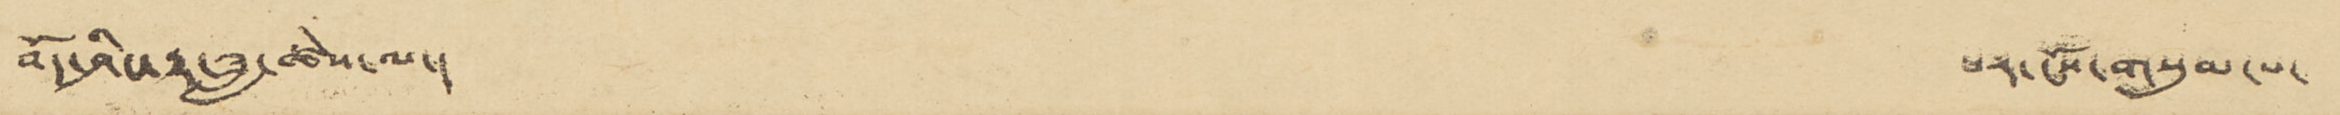བོད་ཤིང་རྟ་ཟླ་ཚེས་ལ་། པར་ངོས་གསུམ་པ་
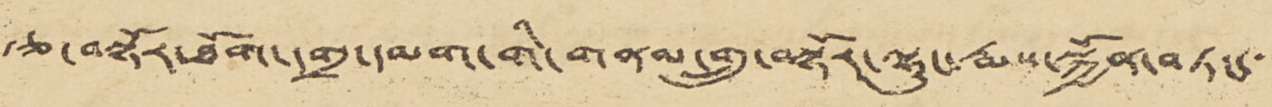རྩ་བསྟོར་ཐོག་དགྲ་དམག་གི་གནམ་གྲུ་བསྟོར་ལྷུང་རྨས་སྐྱོན་བཏང་་
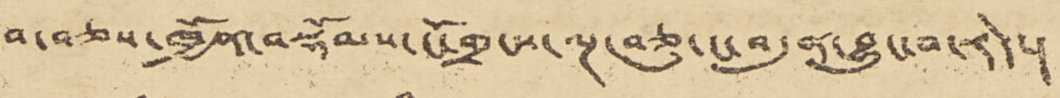བ་བཅས་ཁྱོན་བསྡོམས་ངོ་གྲངས་ལྔ་བཅུ་ང་བདུན་བྱུང་བ་རེད་།
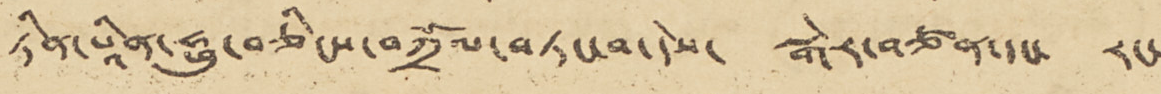ཏཱིན་པཱིན་ཧྥུ་བཅིངས་བཀྲོལ་བཏང་བ་དེས་ སྒེར་བཙན་དང་ རང་
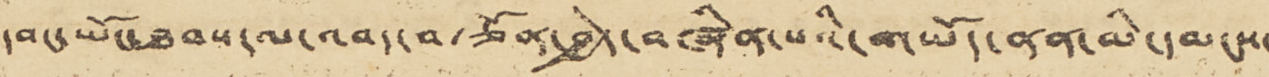དབང་ཡོང་ཐབས་ལ་འབད་བརྩོན་བྱེད་བཞིན་པའི་གཡོད་ནན་མི་དམངས་
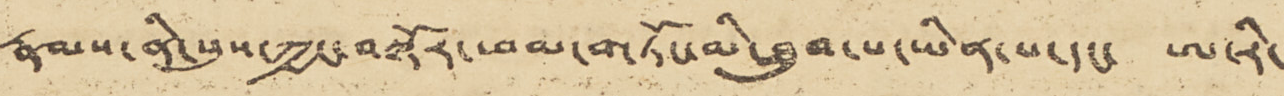རྣམས་ནི་སུས་ཀྱང་བསྟོར་ཕམ་གཏོང་མི་ཐུབ་པ་ཡིན་པ་དང་ ཨ་རི་
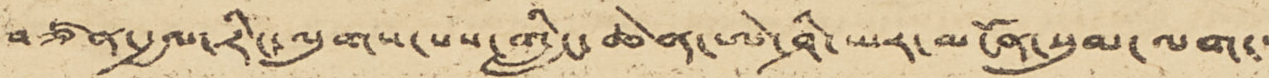བཙན་རྒྱལ་རིང་ལུགས་པས་གླིང་ཆེན་ཨེ་ཤི་ཡར་མངོན་སུམ་ལག་་་
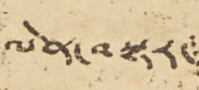ལེན་བསྟར་
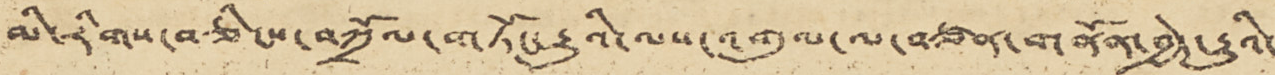མི་རིགས་བཅིངས་བཀྲོལ་གཏོང་རྒྱུའི་ལས་འགུལ་ལ་བཙན་གནོན་བྱེད་རྒྱུའི་
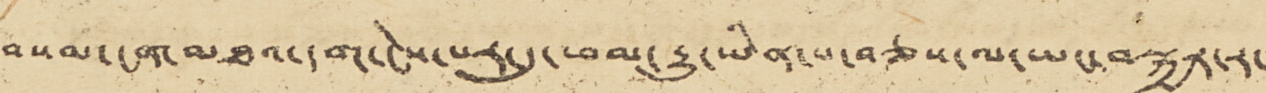བསམ་ངན་མཐའ་དག་ངེས་པར་དུ་ཕམ་རྒྱུ་ཡིན་པ་བཅས་ལ་ཡང་བསྐྱར་ར་་
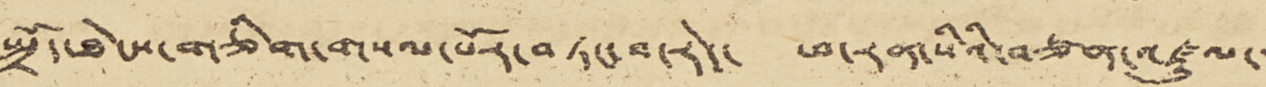སྤྲོད་ཐེངས་གཅིག་གསལ་པོར་བཏང་བ་རེད་ ཕ་རན་སིའི་བཙན་འཛུལ་་་
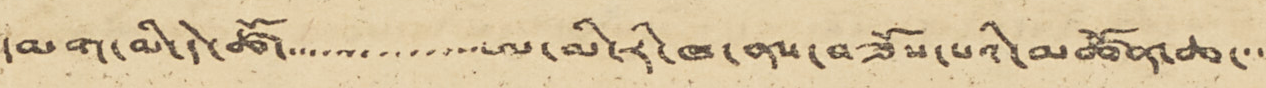དམག་མི་དེ་ཚོ་་་་་་་་་་་་་་་་ཨ་མི་རི་ཁ་ནས་བཟོས་པའི་མཚོན་ཆ་་་་
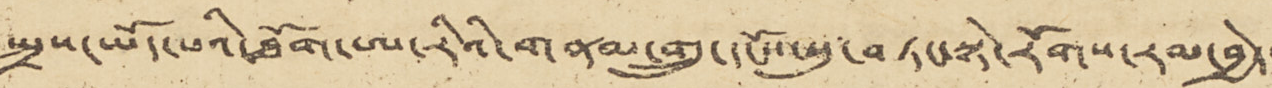སྤྲས་ཡོད་པའི་ཐོག་ཨ་རིའི་གནམ་གྲུ་དངོས་སུ་བཏང་སྟེ་རོགས་རམ་བྱེད་
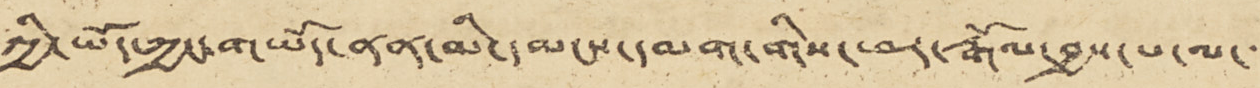ཀྱི་ཡོད་ཀྱང་གཡོད་ནན་མི་དམངས་དམག་གིས་ཕར་རྒོལ་བྱས་པ་ལ་་་
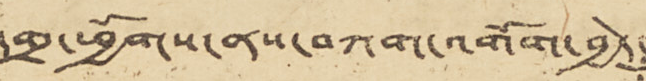དགྲ་ཕྱོགས་ནས་བཀག་འགོག་བྱེད་
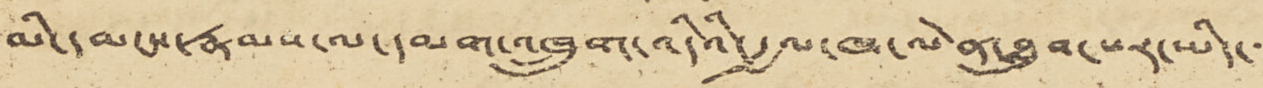མི་དམངས་རྣམས་ལ་དམག་འཁྲུག་འདིའི་རྒྱལ་ཁ་ལེན་ཐུབ་པར་ཡིད་་་
